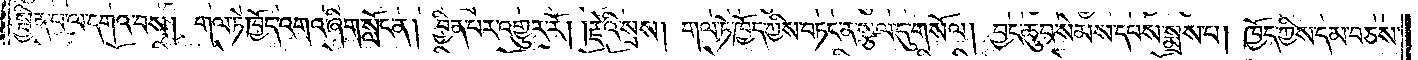སྦྱིན་པ་ལ་དགའ་བས། གལ་ཏེ་ཁྱོད་འགའ་ཞིག་སློང་ན། བྱིན་པར་འགྱུར་རོ། །རྗེའི་སྲས། གལ་ཏེ་ཁྱོད་ཀྱིས་བཏང་ན་སྩལ་དུ་གསོལ། བྱང་ཆུབ་སེམས་དཔས་སྨྲས་པ། ཁྱོད་ཀྱིས་དམ་བཅས་
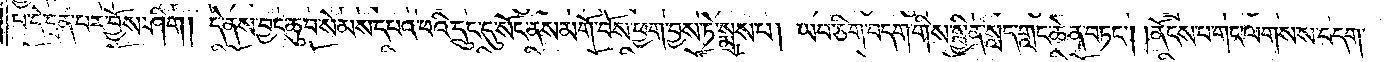པ་དེ་དྲན་པར་བྱོས་ཤིག །དེ་ནས་བྱང་ཆུབ་སེམས་དཔའ་པའི་དྲུང་དུ་སོང་ནས་མགོ་བོས་ཕྱག་བྱས་ཏེ་སྨྲས་པ། ཡབ་ཅིག་བདག་གིས་སྦྱིན་སླད་གླང་ཆེན་བཏང༌། །ནོངས་པ་གང་ལགས་ས་བདག་
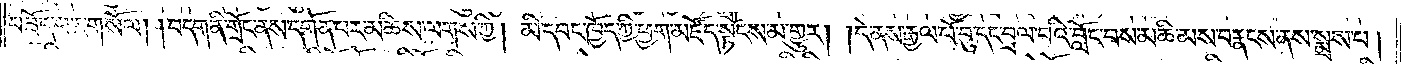བཟོད་པར་གསོལ། །བདག་ནི་གྲོང་ནས་དགོན་པར་མཆིས་ལགས་ཀྱི། མི་དབང་ཁྱོད་ཀྱི་ཕྱག་མཛོད་སྟོངས་མ་གྱུར། །དེ་ནས་རྒྱལ་པོ་བུ་དང་བྲལ་བའི་བློང་བས་མཆི་མས་བརྣངས་ནས་སྨྲས་པ།
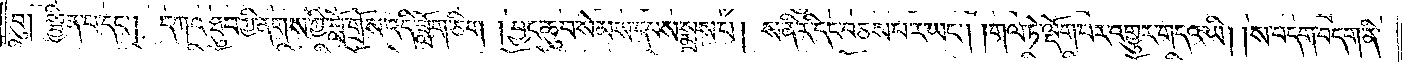བུ། སྦྱིན་པ་དང༌། དཀའ་ཐུབ་ཀྱི་ནགས་ཀྱི་བློ་གྲོས་འདི་ཟློག་ཅིག །བྱང་ཆུབ་སེམས་དཔས་སྨྲས་པ། ས་ནི་རི་དང་བཅས་པར་ཡང༌། །གལ་ཏེ་ལྡོག་པར་འགྱུར་གདའ་ཡི། །ས་བདག་བདག་ནི་
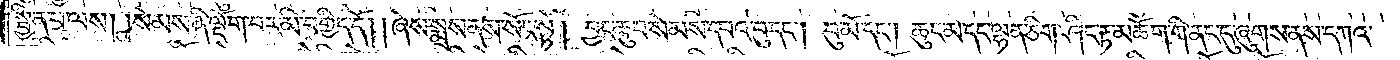སྦྱིན་པ་ལས། །སེམས་ནི་ལྡོག་པར་མི་བགྱིད་དོ། །ཞེས་སྨྲས་ནས་སོང་སྟེ། བྱང་ཆུབ་སེམས་དཔའ་བུ་དང༌། བུ་མོ་དང༌། ཆུང་མ་དང་ལྷན་ཅིག་ཤིང་རྟ་མཆོག་གི་ནང་དུ་ཞུགས་ནས་དཀའ་
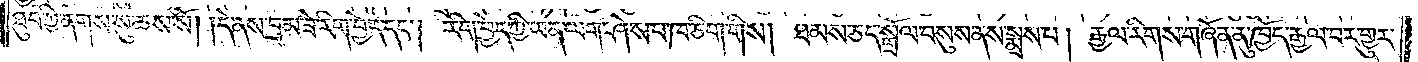ཐུབ་ཀྱི་ནགས་སུ་ཆས་སོ། །དེ་ནས་བྲམ་ཟེ་རིག་བྱེད་དང༌། རིག་བྱེད་ཀྱི་ཡན་ལག་ཤེས་པ་ཁ་ཅིག་གིས། ཐམས་ཅད་སྒྲོལ་བསུས་ནས་སྨྲས་པ། རྒྱལ་རིགས་གཞོན་ནུ་ཁྱོད་རྒྱལ་བར་གྱུར་
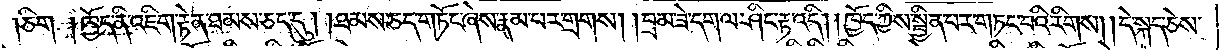ཅིག །ཁྱོད་ནི་འཇིག་རྟེན་ཐམས་ཅད་དུ། ཐམས་ཅད་གཏོང་ཞེས་རྣམ་པར་གྲགས། །བྲམ་ཟེ་དག་ལ་ཤིང་རྟ་འདི། །ཁྱོད་ཀྱིས་སྦྱིན་པར་གཏང་བའི་རིགས། །དེ་སྐད་ཅེས་
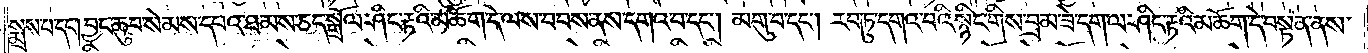སྨྲས་པ་དང༌། བྱང་ཆུབ་སེམས་དཔའ་ཐམས་ཅད་སྒྲོལ་ཤིང་རྟའི་མཆོག་དེ་ལས་བབས་ནས་དགའ་བ་དང༌། མགུ་བ་དང༌། རབ་ཏུ་དགའ་བའི་སྙིང་གིས་བྲམ་ཟེ་དག་ལ་ཤིང་རྟའི་མཆོག་དེ་བསྟན་ནས་
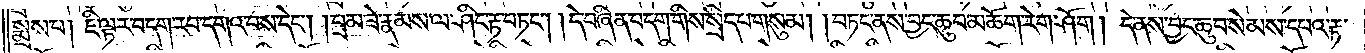སྨྲས་པ། ཇི་ལྟར་བདག་རབ་དགའ་བས་དེང༌། །བྲམ་ཟེ་རྣམས་ལ་ཤིང་རྟ་བཏང༌། །དེ་བཞིན་བདག་གིས་སྲིད་པ་གསུམ། །བཏང་ནས་བྱང་ཆུབ་མཆོག་རེག་ཤོག །དེ་ནས་བྱང་ཆུབ་སེམས་དཔའ་རྟ་
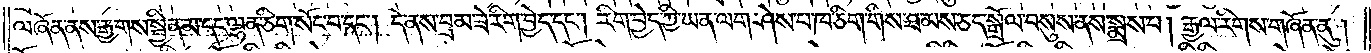ལ་ཞོན་ནས་རྒྱགས་སྦྱིན་མ་དང་ལྷན་ཅིག་སོང་བ་དང༌། དེ་ནས་བྲམ་ཟེ་རིག་བྱེད་དང༌། རིག་བྱེད་ཀྱི་ཡན་ལག་ཤེས་པ་ཁ་ཅིག་གིས་ཐམས་ཅད་སྒྲོལ་བསུས་ནས་སྨྲས་པ། རྒྱལ་རིགས་གཞོན་ནུ།
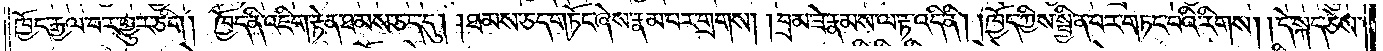ཁྱོད་རྒྱལ་བར་གྱུར་ཅིག །ཁྱོད་ནི་འཇིག་རྟེན་ཐམས་ཅད་དུ། །ཐམས་ཅད་གཏོང་ཞེས་རྣམ་པར་གྲགས། །བྲམ་ཟེ་རྣམས་ལ་རྟ་འདི་ནི། །ཁྱོད་ཀྱིས་སྦྱིན་པར་གཏང་བའི་རིགས། །དེ་སྐད་ཅེས་
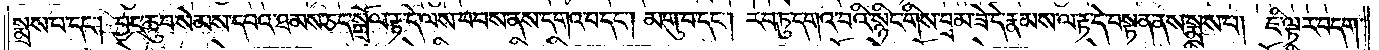སྨྲས་པ། བྱང་ཆུབ་སེམས་དཔའ་ཐམས་ཅད་སྒྲོལ་རྟ་དེ་ལས་བབས་ནས་དགའ་བ་དང༌། མགུ་བ་དང༌། རབ་ཏུ་དགའ་བའི་སྙིང་གིས་བྲམ་ཟེ་དེ་རྣམས་ལ་རྟ་དེ་བསྟན་ནས་སྨྲས་པ། ཇི་ལྟར་བདག་
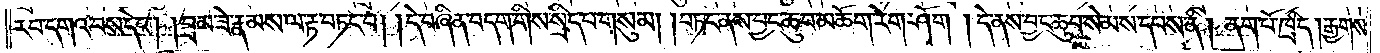རབ་དགའ་བས་དང༌། །བྲམ་ཟེ་རྣམས་ལ་རྟ་བཏང་བ། །དེ་བཞིན་བདག་གིས་སྲིད་པ་གསུམ། །བཏང་ནས་བྱང་ཆུབ་མཆོག་རེག་ཤོག །དེ་ནས་བྱང་ཆུབ་སེམས་དཔས་ནི། ནག་པོ་ཁྲིད་།རྒྱགས་
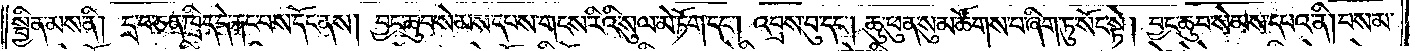སྦྱིན་མས་ནི། དྲ་བ་ཅན་ཁྲིད་དེ་རྐང་པས་དོང་ནས། བྱང་ཆུབ་སེམས་དཔས་གངས་རིའི་སུལ་མེ་ཏོག་དང༌། འབྲས་བུ་དང༌། ཆུ་ཕུན་སུམ་ཚོགས་པ་ཞིག་ཏུ་སོང་སྟེ། བྱང་ཆུབ་སེམས་དཔའ་ནི། བསམ་
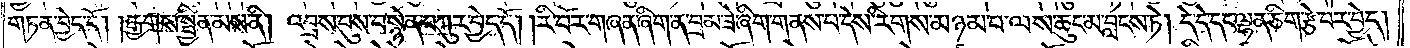གཏན་བྱེད་དོ། །རྒྱགས་སྦྱིན་མས་ནི། འབྲས་བུས་བསྙེན་བཀུར་བྱེད་དོ། །རི་བོར་གཞན་ཞིག་ན་བྲམ་ཟེ་ཞིག་གནས་པ་དེས་རིགས་མཉམ་པ་ལས་ཆུང་མ་བླངས་ཏེ། དེ་དེ་དང་ལྷན་ཅིག་རྩེ་བར་བྱེད།
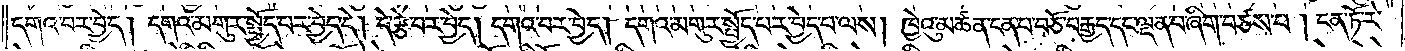དགའ་བར་བྱེད། དགའ་མགུར་སྤྱོད་པར་བྱེད་དེ། དེ་རྩེ་བར་བྱེད། །དགའ་བར་བྱེད། དགའ་མགུར་སྤྱོད་པར་བྱེད་པ་ལས། ཁྱེའུ་མཚན་ངན་པ་བཅོ་བརྒྱད་དང་ལྡན་པ་ཞིག་བཙས་པ། ངན་ཏོ་རེ་
